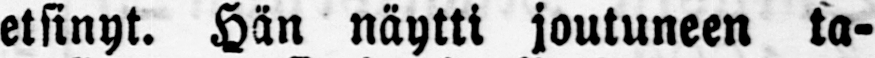etsinyt. Hän näytti joutuneen ta-
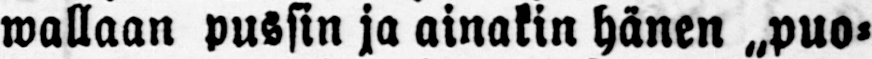wallaan pussin ja ainakin hänen „puo-
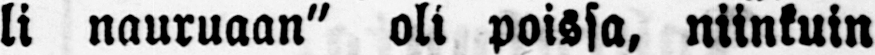li nauruaan" oli poissa, niinkuin
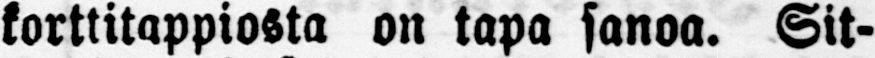korttitappiosta on tapa sanoa. Sit-
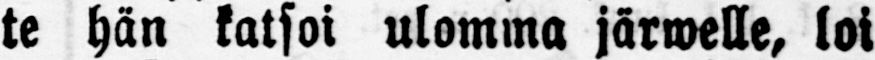te hän katsoi ulomma järwelle, loi
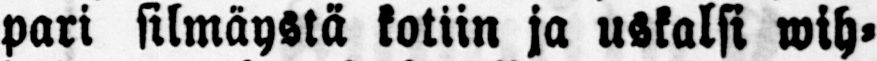pari silmäystä kotiin ja uskalsi wih-
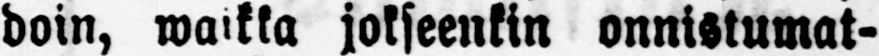doin, waikka jokseenkin onnistumat-
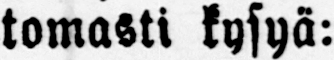tomasti kysyä:
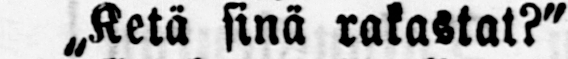„Ketä sinä rakastat?"
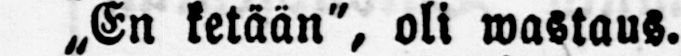„En ketään", oli wastaus.
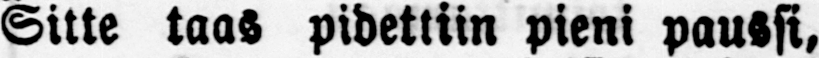Sitte taas pidettiin pieni paussi,
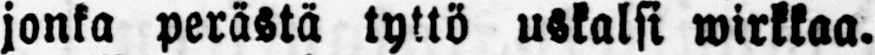jonka perästä tyttö uskalsi wirkkaa.
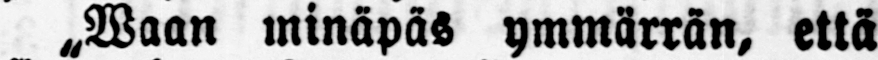„Waan minäpäs ymmärrän, että
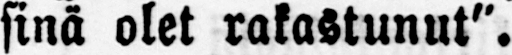sinä olet rakastunut".
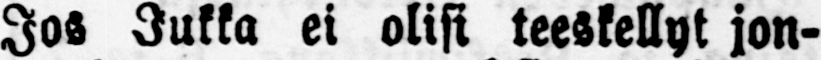Jos Jukka ei olisi teeskellyt jon-
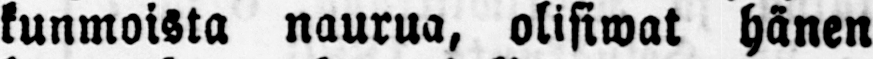kunmoista naurua, olisiwat hänen
